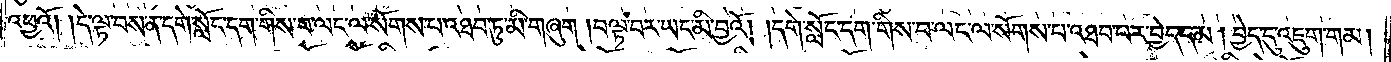འཕྱའོ། །དེ་ལྟ་བས་ན་དགེ་སློང་དག་གིས་བ་ལང་ལ་སོགས་པ་འཐབ་ཏུ་མི་གཞུག །བལྟ་བར་ཡང་མི་བྱའོ། །དགེ་སློང་དག་གིས་བ་ལང་ལ་སོགས་པ་འཐབ་པར་བྱེད་དམ། བྱེད་དུ་འཇུག་གམ།
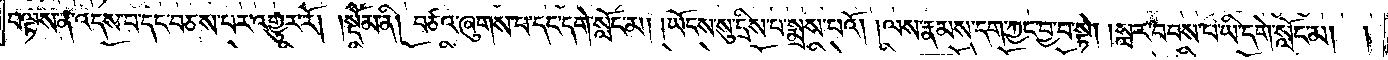བལྟས་ན་འདས་པ་དང་བཅས་པར་འགྱུར་རོ།    །སྡོམ་ནི། བཙའ་ཞུགས་པ་དང་དགེ་སློང་མ། །ཡོངས་སུ་དྲིས་པ་སྨྲས་པའོ། །ལས་རྣམས་དག་ཀྱང་བྱ་བ་སྟེ། སླར་བབས་པ་ཡི་དགེ་སློང་མ། །
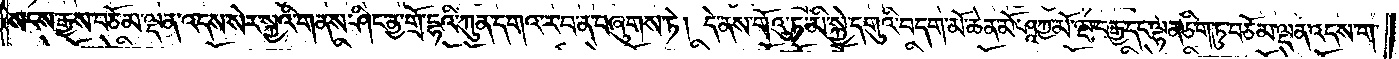སངས་རྒྱས་བཅོམ་ལྡན་འདས་སེར་སྐྱའི་གནས་ཤིང་ནྱ་གྲོ་དྷའི་ཀུན་དགའ་ར་བ་ན་བཞུགས་ཏེ། དེ་ནས་གོའུ་ཏ་མི་སྐྱེ་དགུའི་བདག་མོ་ཆེན་མོ་ཤཱཀྱ་མོ་ལྔ་བརྒྱ་དང་ལྷན་ཅིག་ཏུ་བཅོམ་ལྡན་འདས་ག་
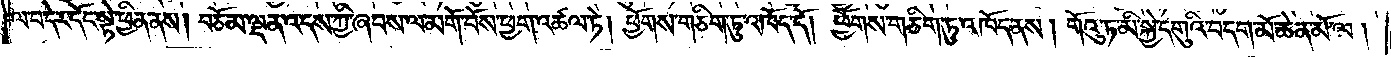ལ་བ་དེར་དོང་སྟེ་ཕྱིན་ནས། བཅོམ་ལྡན་འདས་ཀྱི་ཞབས་ལ་མགོ་བོས་ཕྱག་འཚལ་ཏེ། ཕྱོགས་གཅིག་ཏུ་འཁོད་དོ། །ཕྱོགས་གཅིག་ཏུ་འཁོད་ནས། གོའུ་ཏ་མི་སྐྱེ་དགུའི་བདག་མོ་ཆེན་མོ་ལ།
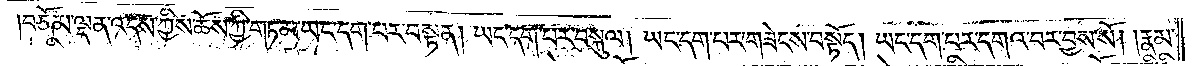བཅོམ་ལྡན་འདས་ཀྱིས་ཆོས་ཀྱི་གཏམ་ཡང་དག་པར་བསྟན། ཡང་དག་པར་བསྐུལ། ཡང་དག་པར་གཟེངས་བསྟོད། ཡང་དག་པར་དགའ་བར་བྱས་སོ། །རྣམ་
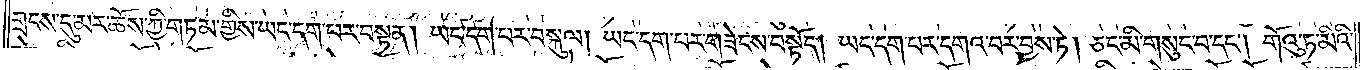གྲངས་དུ་མར་ཆོས་ཀྱི་གཏམ་གྱིས་ཡང་དག་པར་བསྟན། ཡང་དག་པར་བསྐུལ། ཡང་དག་པར་གཟེངས་བསྟོད། ཡང་དག་པར་དགའ་བར་བྱས་ཏེ། ཅང་མི་གསུང་བ་དང༌། གོའུ་ཏ་མིའི་
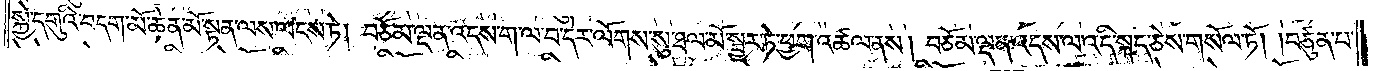སྐྱེ་དགུའི་བདག་མོ་ཆེན་མོ་སྟན་ལས་ལངས་ཏེ། བཅོམ་ལྡན་འདས་ག་ལ་བ་དེར་ལོགས་སུ་ཐལ་མོ་སྦྱར་ཏེ་ཕྱག་འཚལ་ནས། བཅོམ་ལྡན་འདས་ལ་འདི་སྐད་ཅེས་གསོལ་ཏོ། །བཙུན་པ་
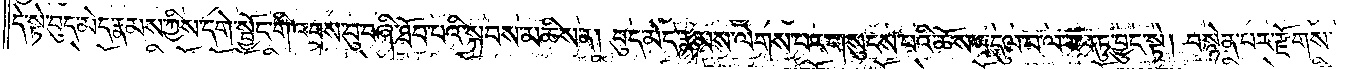དེ་སྟེ་བུད་མེད་རྣམས་ཀྱིས་དགེ་སྦྱོང་གི་འབྲས་བུ་བཞི་ཐོབ་པའི་སྐབས་མཆིས་ན། བུད་མེད་རྣམས་ལེགས་པར་གསུངས་པའི་ཆོས་འདུལ་བ་ལ་རབ་ཏུ་བྱུང་སྟེ། བསྙེན་པར་རྫོགས་
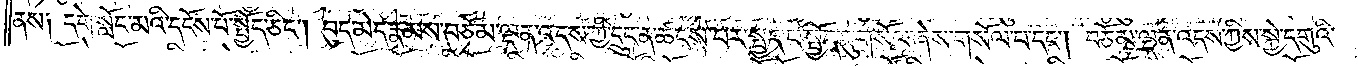ནས༑ དགེ་སློང་མའི་དངོས་པོ་སྤྱོད་ཅིང༌། བུད་མེད་རྣམས་བཅོམ་ལྡན་འདས་ཀྱི་དྲུང་ན་ཚངས་པར་སྤྱད་པ་སྤྱོད་དུ་གསོལ་ཞེས་གསོལ་པ་དང༌། བཅོམ་ལྡན་འདས་ཀྱིས་སྐྱེ་དགུའི་
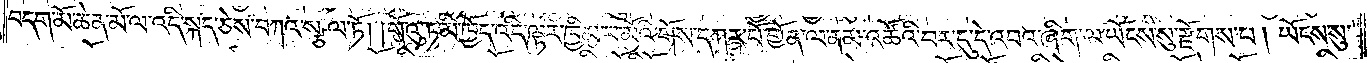བདག་མོ་ཆེན་མོ་ལ་འདི་སྐད་ཅེས་བཀའ་སྩལ་ཏོ། །གོའུ་ཏ་མི་ཁྱོད་འདི་ལྟར་ཁྱིམ་པ་མོའི་གོས་དཀར་པོ་གྱོན་ལ་ནམ་འཚོའི་བར་དུ་དེ་འབའ་ཞིག་ལ་ཡོངས་སུ་རྫོགས་པ། ཡོངས་སུ་
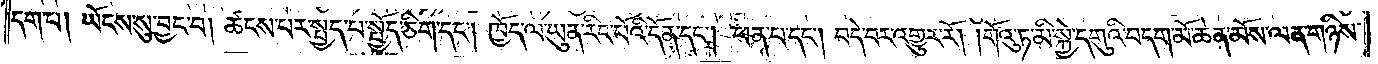དག་པ། ཡོངས་སུ་བྱང་བ། ཚངས་པར་སྤྱད་པ་སྤྱོད་ཅིག་དང༌། ཁྱོད་ལ་ཡུན་རིང་པོའི་དོན་དང༌། ཕན་པ་དང༌། བདེ་བར་འགྱུར་རོ། །གོའུ་ཏ་མི་སྐྱེ་དགུའི་བདག་མོ་ཆེན་མོས་ལན་གཉིས་
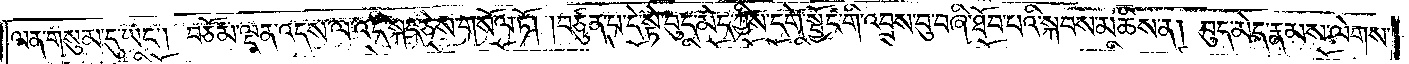ལན་གསུམ་དུ་ཡང༌། བཅོམ་ལྡན་འདས་ལ་འདི་སྐད་ཅེས་གསོལ་ཏོ། །བཙུན་པ་དེ་སྟེ་བུད་མེད་ཀྱིས་དགེ་སྦྱོང་གི་འབྲས་བུ་བཞི་ཐོབ་པའི་སྐབས་མཆིས་ན། བུད་མེད་རྣམས་ལེགས་
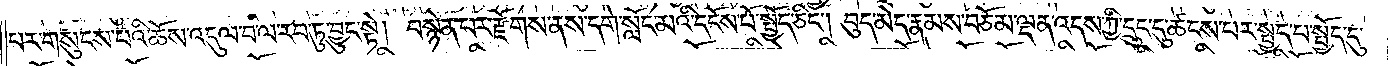པར་གསུངས་པའི་ཆོས་འདུལ་བ་ལ་རབ་ཏུ་བྱུང་སྟེ། བསྙེན་པར་རྫོགས་ནས་དགེ་སློང་མའི་དངོས་པོ་སྤྱོད་ཅིང༌། བུད་མེད་རྣམས་བཅོམ་ལྡན་འདས་ཀྱི་དྲུང་དུ་ཚངས་པར་སྤྱད་པ་སྤྱོད་དུ་
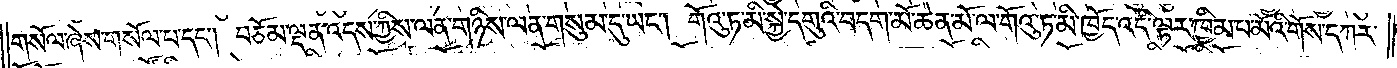གསོལ་ཞེས་གསོལ་པ་དང༌། བཅོམ་ལྡན་འདས་ཀྱིས་ལན་གཉིས་ལན་གསུམ་དུ་ཡང༌། གོའུ་ཏ་མི་སྐྱེ་དགུའི་བདག་མོ་ཆེན་མོ་ལ་གོའུ་ཏ་མི་ཁྱོད་འདི་ལྟར་ཁྱིམ་པ་མོའི་གོས་དཀར་
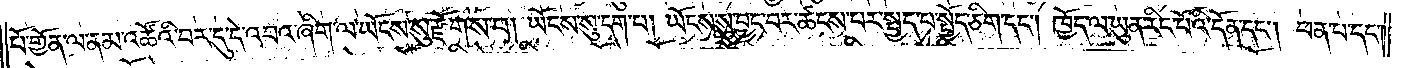པོ་གྱོན་ལ་ནམ་འཚོའི་བར་དུ་དེ་འབའ་ཞིག་ལ་ཡོངས་སུ་རྫོགས་པ། ཡོངས་སུ་དག་པ། ཡོངས་སུ་བྱང་བར་ཚངས་པར་སྤྱད་པ་སྤྱོད་ཅིག་དང༌། ཁྱོད་ལ་ཡུན་རིང་པོའི་དོན་དང༌། ཕན་པ་དང་
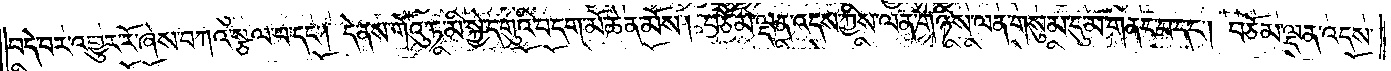བདེ་བར་འགྱུར་རོ་ཞེས་བཀའ་སྩལ་པ་དང༌། དེ་ནས་གོའུ་ཏ་མི་སྐྱེ་དགུའི་བདག་མོ་ཆེན་མོས། བཅོམ་ལྡན་འདས་ཀྱིས་ལན་གཉིས་ལན་གསུམ་དུ་མ་གནང་བ་དང༌། བཅོམ་ལྡན་འདས་
